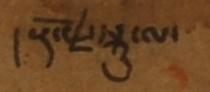།རྡོ་རྗེ་སྐུ་ལ
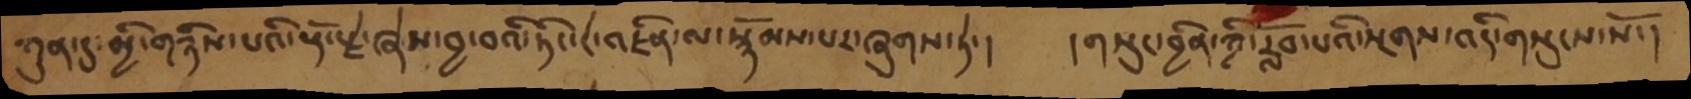ཀུན་དུ་མྱི་གཉིས་པའི་རྡོ་རྗེ་ཞེས་བྱ་བའི་ཏིང་ངེ་འཛིན་ལ་སྙོམས་པར་ཞུགས་ཏེ་།   ། གསུང་བྱིན་ཀྱི་རློབ་པའི་སྔགས་འདི་གསུངས་སོ་།
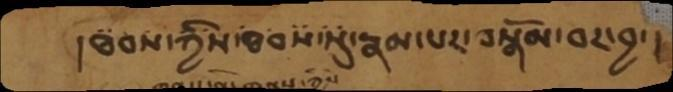ཐབས་ཀྱིས་ཐབས་སུ་རྣམ་པར་བསྒོམ་བར་བྱ་།
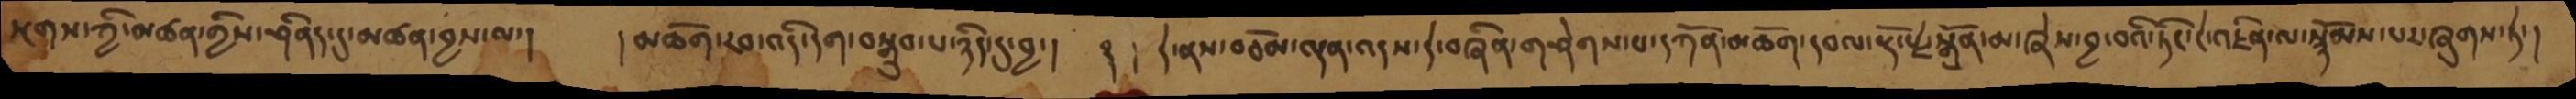སྔགས་ཀྱི་མཚན་གྱིས་ཤིནད་དུ་མཚན་བྱས་ལ་།  །མཆོག་རབ་འདི་དག་བསྒྲུབ་པ་ཉིད་དུ་བྱ་།   ࿑ །དེ་ནས་བཅོམ་ལྡན་དེ་བཞིན་གཤེགས་པ་དཀོན་མཆོག་དབལ་རྡོ་རྗེ་སྒྲོན་མ་ཞེས་བྱ་བའི་ཏིང་ངེ་འཛིན་ལ་སྙོམས་པར་ཞུགས་ཏེ་།
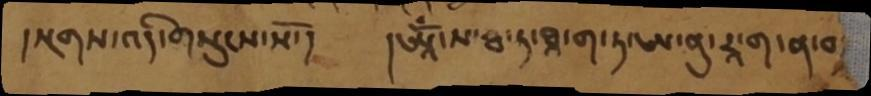། སྔགས་འདི་གསུངས་སོ་།       ། ཨཱོྃ་ས་རྦ་ཏ་ཐཱ་ག་ཏ་ཨ་ནུ་རཱ་ག་ན་བ
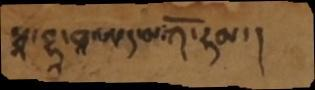སྭཱ་བྷཱ་ཝཱ་ཨད་མ་ཀོ་ཧམ་།
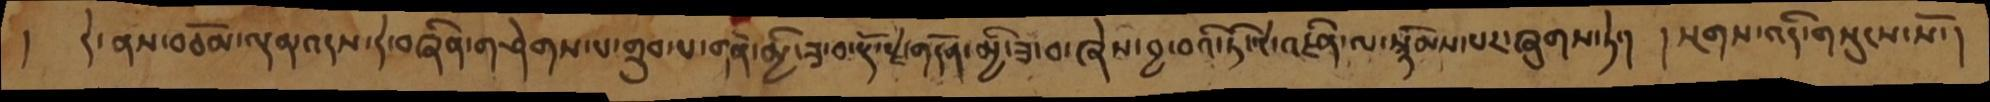།  དེ་ནས་བཅོམ་ལྡན་འདས་དེ་བཞིན་གཤེགས་པ་གྲུབ་པ་གདོན་མྱི་ཟ་བ་རྡོ་རྗེ་གདོན་མྱི་ཟ་བ་ཞེས་བྱ་བའི་ཏིང་ངེ་འཛིན་ལ་སྙོམས་པར་ཞུགས་ཏེ་།   །སྔགས་འདི་གསུངས་སོ་།
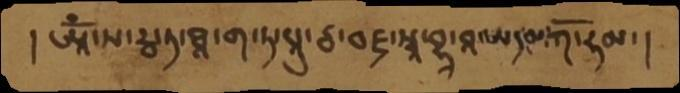། ཨཱོྃ་ས་རྦ་ཏ་ཐཱ་ག་ཏ་པཱུ་ཙ་བཛྲ་སྭཱ་བྷཱ་བཱ་ཨད་མ་ཀོ་ཧམ་ །
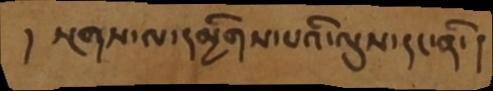།  སྔགས་ལ་དམྱིགས་པའི་ལུས་དང་ནི་ །
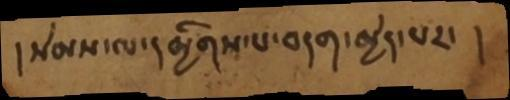།  སེམས་ལ་དམྱིགས་པ་བདག་མྱེད་པར་ །
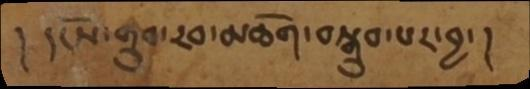། དངོས་གྲུབ་རབ་མཆོག་བསྒྲུབ་པར་བྱ་ །
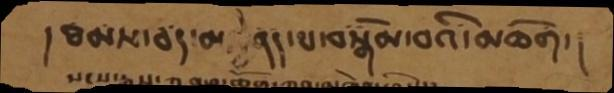།ཐམས་ཅད་མཁྱེནད་པ་བསྒོམ་བའི་མཆོག་།
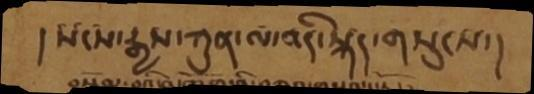།སངས་རྒྱས་ཀུན་ལ་འདི་སྐད་གསུངས་།
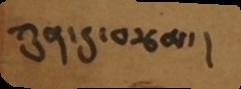ཀུན་དུ་བརྩམ་ །
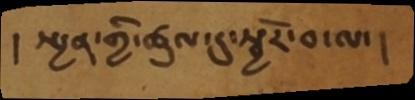།  སྤྱན་གྱི་ཚུལ་དུ་སྦྱོར་བ་ལ་ །
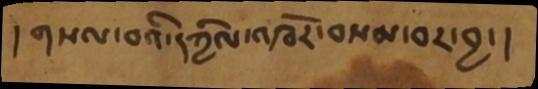།  གསལ་བའི་དཀྱིལ་འཁོར་བསམ་བར་བྱ་།
